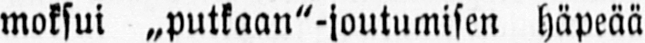moksui „putkaan"-joutumisen häpeää
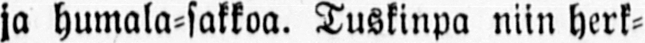ja humala-sakkoa. Tuskinpa niin herk-
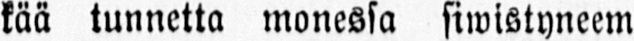kää tunnetta monessa siwistyneem-
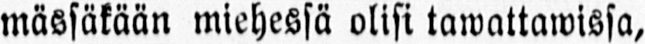mässäkään miehessä olisi tawattawissa,
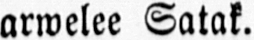arwelee Satak.
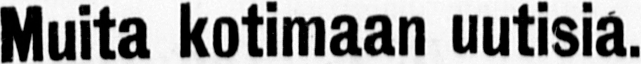Muita kotimaan uutisia.
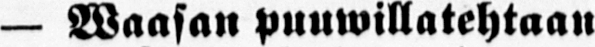— Waasan puuwillatehtaan
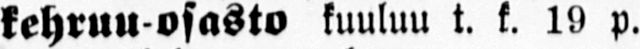kehruu-osasto kuuluu t. k. 19 p.
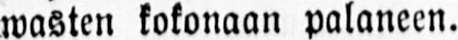wasten kokonaan palaneen.
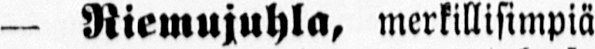— Riemujuhla, merkillisimpiä
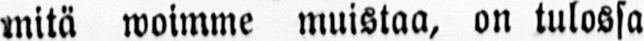mitä woimme muistaa, on tulossa
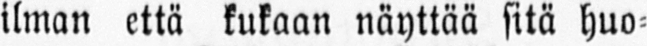ilman että kukaan näyttää sitä huo-
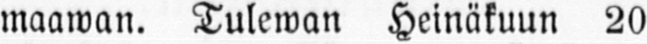maawan. Tulewan Heinäkuun 20
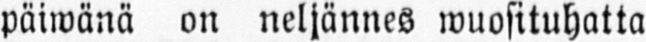päiwänä on neljännes wuosituhatta
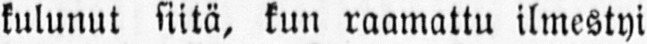kulunut kiitä, kun raamattu ilmestyi
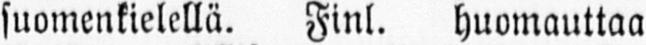suomenkielellä. Finl. huomauttaa
